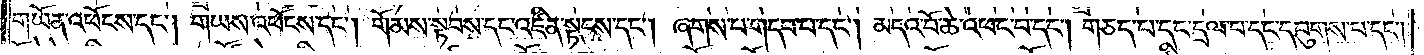གཡོན་འཕོངས་དང༌། གཡས་འཕོངས་དང༌། གོམས་སྟབས་དང་འཛིན་སྟབས་དང༌། ཞགས་པ་གདབ་པ་དང༌། མདའ་བོ་ཆེ་འཕང་བ་དང༌། གཅད་པ་དང་དྲལ་བ་དང་དབུགས་པ་དང༌།
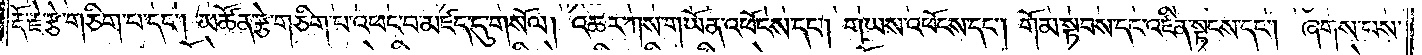རྡོ་རྗེ་རྩེ་གཅིག་པ་དང༌། མཚོན་རྩེ་གཅིག་པ་འཕང་བ་མཛད་དུ་གསོལ། འཆར་ཀས་གཡོན་འཕོངས་དང༌། གཡས་འཕོངས་དང༌། གོམ་སྟབས་དང་འཛིན་སྟངས་དང༌། ཞགས་པས་
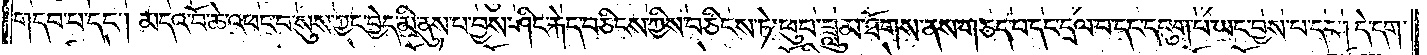གདབ་པ་དང༌། མདའ་བོ་ཆེ་འཕང་བ་སུས་ཀྱང་བྱེད་མི་ནུས་པ་བྱས་ཤིང་རྐེད་བཅིངས་ཀྱིས་བཅིངས་ཏེ་ཕུབ་ཟླུམ་ཐོགས་ནས་གཅད་པ་དང་དྲལ་བ་དང་དབུག་པ་ཡང་བྱས་པ་དང༌། དེ་དག་
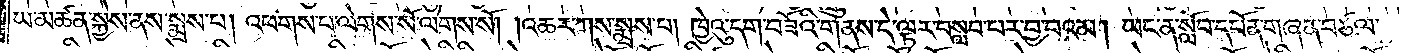ཡ་མཚན་སྐྱེས་ནས་སྨྲས་པ། འཕགས་པ་ལེགས་སོ་ལེགས་སོ། །འཆར་ཀས་སྨྲས་པ། ཁྱེའུ་དག་བཟོའི་གནས་དེ་ལྟར་བསླབ་པར་བྱ་བའམ། ཡང་ན་སློབ་དཔོན་གཞན་བཙལ་
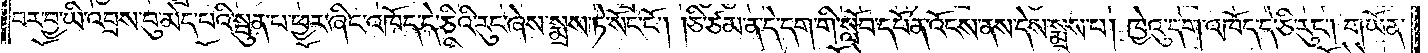བར་བྱ་ཡི་འབྲས་བུ་མེད་པའི་སྦུན་པ་ཕྱར་ཞིང་འཁོད་དེ་ཅིའི་རུང་ཞེས་སྨྲས་ཏེ་སོང་ངོ༌། །ཅི་ཙམ་ན་དེ་དག་གི་སློབ་དཔོན་འོངས་ནས་དེས་སྨྲས་པ། ཁྱེའུ་དག་འཁོད་དེ་ཅི་རུང༌། གཡོན་
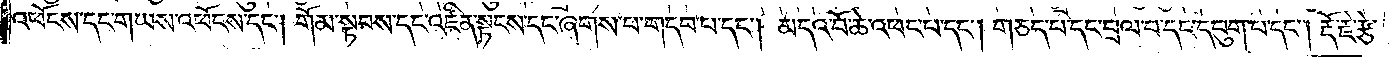འཕོངས་དང་གཡས་འཕོངས་དང༌། གོམ་སྟབས་དང་འཛིན་སྟངས་དང་ཞགས་པ་གདབ་པ་དང༌། མདའ་བོ་ཆེ་འཕང་བ་དང༌། གཅད་པ་དང་བྲལ་བ་དང་དབུག་པ་དང༌། རྡོ་རྗེ་རྩེ་
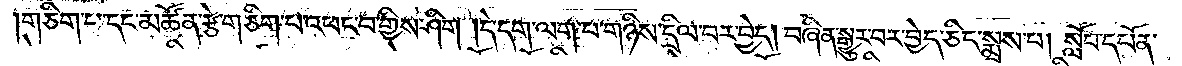གཅིག་པ་དང་མཚོན་རྩེ་གཅིག་པ་འཕང་བ་གྱིས་ཤིག །དེ་དག་ལག་པ་གཉིས་དྲིལ་བར་བྱེད། བཞིན་སྒྱུར་བར་བྱེད་ཅིང་སྨྲས་པ། སློབ་དཔོན་
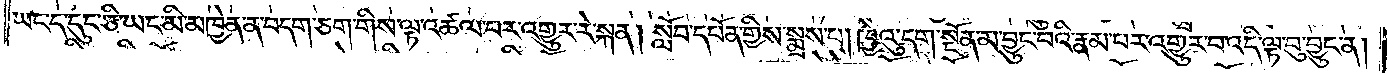ཡང་ད་དུང་ཅི་ཡང་མི་མཁྱེན་ན་བདག་ཅག་གིས་ལྟ་འཚལ་བར་འགྱུར་ཏེ་སྐན། སློབ་དཔོན་གྱིས་སྨྲས་པ། ཁྱེའུ་དག་སྔོན་མ་བྱུང་བའི་རྣམ་པར་འགྱུར་བ་འདི་ལྟ་བུ་བྱུང་ན།
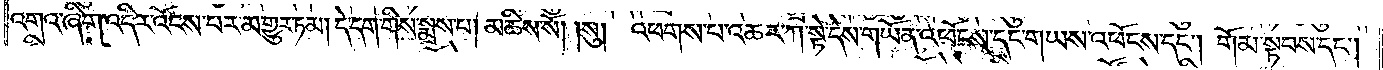འགའ་ཞིག་འདིར་འོངས་པར་མ་གྱུར་ཏམ། དེ་དག་གིས་སྨྲས་པ། མཆིས་སོ། །སུ། འཕགས་པ་འཆར་ཀ་སྟེ་དེས་གཡོན་འཕོངས་དང་གཡས་འཕོངས་དང༌། གོམ་སྟབས་དང༌།
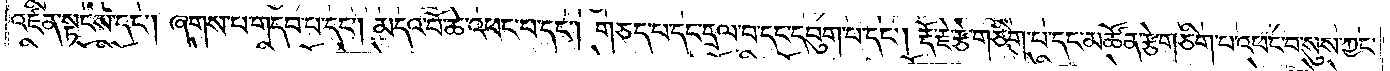འཛིན་སྟངས་དང༌། ཞགས་པ་གདབ་པ་དང༌། མདའ་བོ་ཆེ་འཕང་བ་དང༌། གཅད་པ་དང་དྲལ་བ་དང་དབུག་པ་དང༌། རྡོ་རྗེ་རྩེ་གཅིག་པ་དང་མཚོན་རྩེ་གཅིག་པ་འཕང་བ་སུས་ཀྱང་
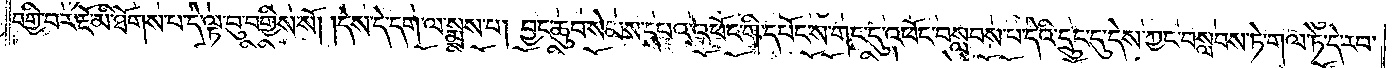བགྱི་བར་རྔོ་མི་ཐོགས་པ་དེ་ལྟ་བུ་བགྱིས་སོ། །དེས་དེ་དག་ལ་སྨྲས་པ། བྱང་ཆུབ་སེམས་དཔའ་འཕོང་གི་དཔོང་ས་གང་དུ་འཕོང་བསླབས་པ་དེའི་དྲུང་དུ་དེས་ཀྱང་བསླབས་ཏེ་གལ་ཏེ་དེ་རབ་
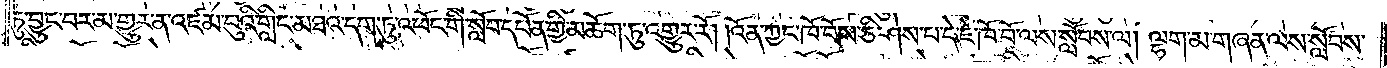ཏུ་བྱུང་བར་མ་གྱུར་ན་འཛམ་བུའི་གླིང་མཐའ་དག་ཏུ་འཕོང་གི་སློབ་དཔོན་གྱི་མཆོག་ཏུ་འགྱུར་རོ། །འོན་ཀྱང་ཁོ་བོས་ཅི་ཤེས་པ་དེ་ཇེ་ཁོ་བོ་ལས་སློབས་ལ། ལྷག་མ་གཞན་ལས་སློབས་
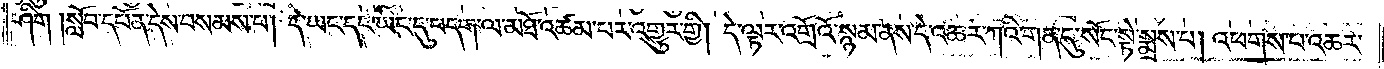ཤིག །སློབ་དཔོན་དེས་བསམས་པ། དེ་ཡང་དང་ཡང་དུ་བདག་ལ་མཐོ་འཚམ་པར་འགྱུར་གྱི། དེ་ལྟར་འགྲོའོ་སྙམ་ནས་དེ་འཆར་ཀའི་གན་དུ་སོང་སྟེ་སྨྲས་པ། འཕགས་པ་འཆར་
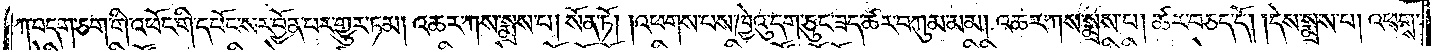ཀ་བདག་ཅག་གི་འཕོང་གི་དཔོང་སར་བྱོན་པར་གྱུར་ཏམ། འཆར་ཀས་སྨྲས་པ། སོན་ཏོ། །འཕགས་པས་ཁྱེའུ་དག་ཅུང་ཟད་ཚར་བཀུམ་མམ། འཆར་ཀས་སྨྲས་པ། ཚར་བཅད་དོ། །དེས་སྨྲས་པ། འཕགས་
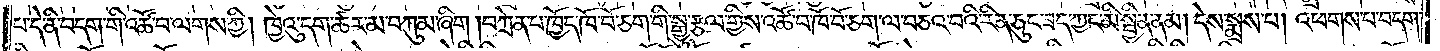པ་དེ་ནི་བདག་གི་འཚོ་བ་ལགས་ཀྱི། ཁྱེའུ་དག་ཚར་མ་བཀུམ་ཞིག །བཀྲེན་པ་ཁྱེད་ཁོ་བོ་ཅག་གི་སྒྱུ་རྩལ་གྱིས་འཚོ་བ་ཁོ་བོ་ཅག་ལ་བཅའ་བའི་རིན་ཅུང་ཟད་ཀྱང་མི་སྦྱིན་ནམ། དེས་སྨྲས་པ། འཕགས་པ་བདག་
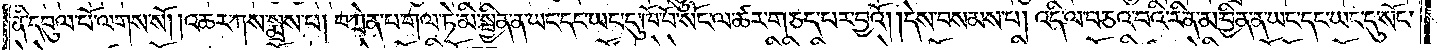ནི་དབུལ་པོ་ལགས་སོ། །འཆར་ཀས་སྨྲས་པ། བཀྲེན་པ་གལ་ཏེ་མི་སྦྱིན་ནས་ཡང་དང་ཡང་དུ་ཁོ་བོ་སོང་ལ་ཚར་གཅད་བར་བྱའོ། །དེས་བསམས་པ། འདི་ལ་བཅའ་བའི་རིན་མ་བྱིན་ན་ཡང་དང་ཡང་དུ་སོང་
